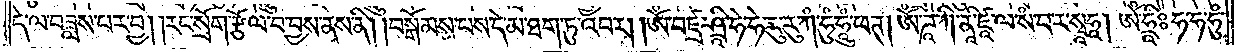དེ་ལ་བཟླས་པར་བྱ། །རང་སྲོག་རྩོལ་བ་བྱས་ནས་ནི། །བསྒོམས་པས་དེ་མ་ཐག་ཏུ་འབར། །ཨོཾ་བཛྲ་ཤྲཱི་ཧེ་ཧེ་རུ་རུ་ཀཾ་ཧཱུཾ་ཧཱུཾ་ཕཊ། ཨོཾ་ཊཱ་ཀི་ནཱ་ཛཱི་ལ་སཾ་བ་ར་སྭཱཧཱ། ཨོཾ་ཧྲཱིཿ ཧ་ཧ་ཧུཾ་
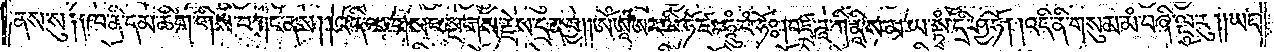ནས་སུ༑ ༑ཁ་ནི་དམ་ཚིག་གིས་བཀང་ནས། །འདི་ལ་གསང་སྔགས་རྗེས་དྲན་བྱ། །ཨོཾ་ཨཱ་ཨ་ར་ལི་ཧོ་ཛཿཧཱུཾ་བཾ་ཧོཿ། བཛྲ་ཌཱ་ཀི་ནཱི་ས་མ་ཡ་སྟྭཾ་དྲི་ཤྱ་ཧོ། །འདི་ནི་གསུམ་མཾ་བཞི་ལྔ་རུ། །ཡང་
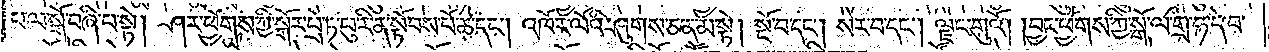པ་ལ་སྒོ་བཞི་པ་སྟེ། ཤར་ཕྱོགས་ཀྱི་སྒོར་པྲེ་ཏ་པུ་རི་ན་སྟོབས་པོ་ཆེ་དང༌། འཁོར་ལོའི་ཤུགས་ཅན་མ་སྟེ། སྔོ་བ་དང༌། སེར་བ་དང༌། ལྗང་གུའོ། །བྱང་ཕྱོགས་ཀྱི་སྒོ་ལ་གྲྀ་ཧ་དེ་བ་
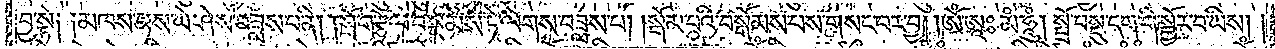བྱ་སྟེ༑ ༑མཁས་པས་ཡེ་ཤེས་བཟླས་བ་ནི། །སྲོག་རྩོལ་བསྔམས་ཏེ་ལེགས་བཟླས་པ། །སྒོམ་པའི་བསྒོམས་པས་གསང་བར་བྱ། །ཨོཾ་ཨཱཿམཾ་ཧཱུཾ། སྤྲོ་བསྡུ་དག་གི་སྦྱོར་བ་ཡིས། །
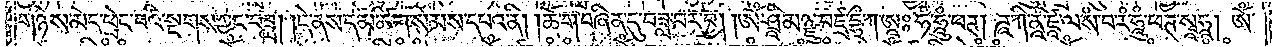གཉིས་མེད་ཕྲེང་པའི་སྔགས་ཀྱང་བཟླ། །དེ་ནས་དམ་ཚིག་སེམས་དཔའ་ནི། ཆོ་ག་བཞིན་དུ་བཟླ་བར་བྱ། །ཨོཾ་ཤྲཱི་མཉྫུ་བཛྲ་དྷྲྀ་ཀ་ཨཱཿཧཾ་ཧཱུཾ་ཕཊ། ཌཱ་ཀི་ནཱི་ཛཱ་ལ་སཾ་བ་རམ་ཧཱུཾ་ཕཌ་སྭཱཧཱ། ཨོཾ་
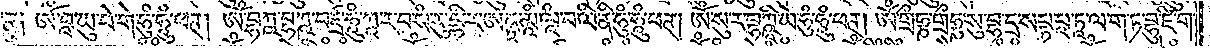ཕཊ༑ ཨོཾ་བཱ་ཡུ་བེ་གེ་ཧུཾ་ཧཱུཾ་ཕཊ། ཨོཾ་བྷཀྵ་བྷཀྵ་བཛྲ་ཧཱུཾ་ཀཱ་ར་བ་སཾ་རུ་དྷི་ར་ཨནྟྲ་མཱཾ་ལཱཾ་བ་ལི་ནི་ཧུཾ་ཧཱུཾ་ཕཊ། ཨོཾ་སུ་ར་བྷཀྵཱི་ཡེ་ཧུཾ་ཧཱུཾ་ཕཊ། ཨོཾ་གྲྀཧྞ་གྲྀཧྞ་སུ་བྷ་དྲ་སཔྟ་པཱ་ཏཱ་ལ་ག་ཏ་བྷུ་ཛི་ག་
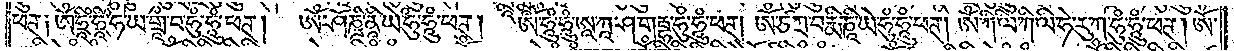ཕཊ༑ ཨོཾ་ཧྲཱིཾ་ཧྲཱིཾ་ཧ་ཡ་གྲཱྀ་བ་ཧུཾ་ཧཱུཾ་ཕཊ། ཨོཾ་ཤོཎྜི་ནཱི་ཡེ་ཧུཾ་ཧཱུཾ་ཕཊ། ཨོཾ་ཧུཾ་ཧཱུཾ་ཨཱ་ཀཱ་ཤ་གརྦྷ་ཧུཾ་ཧཱུཾ་ཕཊ། ཨོཾ་ཙ་ཀྲ་པ་རྨི་ཎཱི་ཡེ་ཧུཾ་ཧཱུཾ་ཕཊ། ཨོཾ་ཀི་ལི་ཀི་ལི་ཧེ་རུ་ཀ་ཧུཾ་ཧཱུཾ་ཕཊ། ཨོཾ་
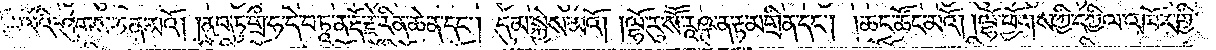འཁོར་ལོའི་ཤུགས་ཅན་མའོ། །ནུབ་ཏུ་གྲྀ་ཧ་དེ་བ་ཏཱ་ན་རྡོ་རྗེ་རིན་ཆེན་དང༌། དུམ་སྐྱེས་མའོ། །ལྷོ་རུ་སཽ་རཱཥྚ་ན་རྟ་མགྲིན་དང༌། །ཆང་ཚོང་མའོ། །ལྷོ་ཕྱོགས་ཀྱི་དཀྱིལ་འཁོར་གྱི་
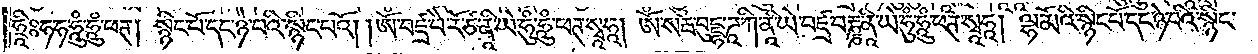ཧྲཱིཿ ཧ་ཧ་ཧཱུཾ་ཧཱུཾ་ཕཊ། སྙིང་པོ་དང་ཉེ་བའི་སྙིང་པའོ། །ཨོཾ་བཛྲ་བཻ་རོ་ཙ་ནཱི་ཡེ་ཧུཾ་ཧཱུཾ་ཕཊ་སྭཱཧཱ། ཨོཾ་སརྦ་བུདྡྷ་ཌཱ་ཀི་ནཱི་ཡེ་བཛྲ་བརྞ་ནཱི་ཡེ་ཧུཾ་ཧཱུཾ་ཕཊ་སྭཱཧཱ། ལྷ་མོའི་སྙིང་པོ་དང་ཉེ་བའི་སྙིང་
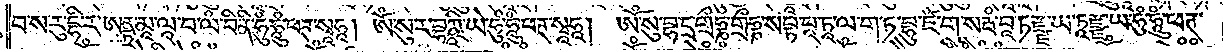བ་ས་རུ་དྷི་ར་ཨནྟ་མཱ་ལཱ་བ་ལཾ་པི་ནི་ཧུཾ་ཧཱུཾ་ཕཊ་སྭཱཧཱ། ཨོཾ་སུ་ར་བྷཀྵཱི་ཡེ་ཧུཾ་ཧཱུཾ་ཕཊ་སྭཱཧཱ། ཨོཾ་སུ་བྷ་དྲ་གྲྀཧྞ་གྲྀཧྞ་སཔྟ་པཱ་ཏཱ་ལ་ག་ཏ་བྷུ་ཛཾ་ག་སརྦཾ་བཱ་ཏརྫྫ་ཡ་ཏཱརྫྫ་ཡ་ཧུཾ་ཧཱུཾ་ཕཊ་
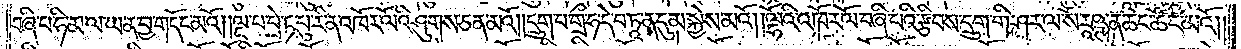བཞི་པ་ཧི་མ་ལ་ཡན་བྱ་གདོང་མའོ། །ལྔ་པ་པྲེ་ཏ་པུ་རིན་འཁོར་ལོའི་ཤུགས་ཅན་མའོ། །དྲུག་པ་གྲྀ་ཧ་དེ་བ་ཏཱ་ན་དུ་མ་སྐྱེས་མའོ། །ལྷོའི་འཁོར་ལོ་བཞི་པའི་རྩིབས་དྲུག་གི་ཤར་ལ་སཻ་རཱཥྚ་ན་ཆང་ཚང་མའོ། །
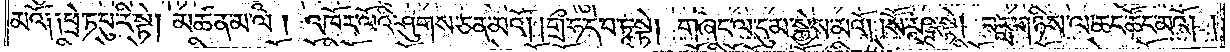མའོ༑ ༑ཕྲེ་ཏ་པུ་རི་སྟེ། མཚན་མ་ལ། འཁོར་ལོའི་ཤུགས་ཅན་མའོ། །གྲྀ་ཧད་བ་ཏཱ་སྟེ། གཞང་ལ་དུ་མ་སྐྱེས་མའོ། །སཽ་རཱཥྚ་སྟེ། བརླ་གཉིས་ལ་ཆང་ཚོང་མའོ། །
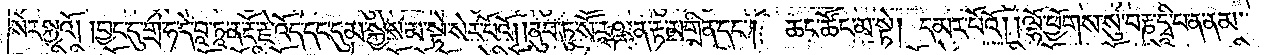སེར་སྐྱའོ། །བྱང་དུ་གྲྀ་ཧ་དེ་བཱ་ཏཱ་ན་རྡོ་རྗེ་འོད་དང་དུ་མ་སྐྱེས་མ་སྟེ་སེར་པོའོ། །ནུབ་ཏུ་སཽ་རཱཥྜ་ན་རྟ་མགྲིན་དང༌། ཆང་ཚོང་མ་སྟེ། དམར་པོའོ། །ལྷོ་ཕྱོགས་སུ་བརྞ་དྭི་པ་ན་ནམ་
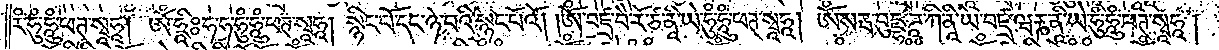རཾ་ཧུཾ་ཧཱུཾ་ཕཊ་སྭཱཧཱ། ཨོཾ་ཧྲཱིཿ ཧ་ཧ་ཧུཾ་ཧཱུཾ་ཕཊ་སྭཱཧཱ། སྙིང་པོ་དང་ཉེ་བའི་སྙིང་པོའོ། །ཨོཾ་བཛྲ་བཻ་རོ་ཙ་ནཱི་ཡེ་ཧུཾ་ཧཱུཾ་ཕཊ་སྭཱཧཱ། ཨོཾ་སརྦ་བུདྡྷ་ཌཱ་ཀི་ནཱི་ཡེ་བཛྲ་ཝརྞ་ནཱི་ཡེ་ཧུཾ་ཧཱུཾ་ཕཊ་སྭཱཧཱ།
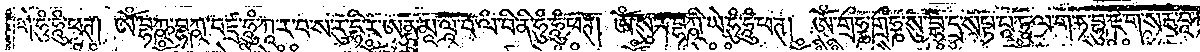གེ་ཧུཾ་ཧཱུཾ་ཕཊ། ཨོཾ་བྷཀྵ་བྷཀྵ་བཛྲ་ཧཱུཾ་ཀཱ་ར་བ་ས་རུ་དྷི་ར་ཨནྟྲ་མཱ་ལཱ་བ་ལཾ་བི་ནི་ཧུཾ་ཧཱུཾ་ཕཊ། ཨོཾ་སུ་ར་བྷཀྵི་ཡེ་ཧུཾ་ཧཱུཾ་ཕཊ། ཨོཾ་གྲྀཧྞ་གྲྀཧྞ་སུ་བྷ་དྲ་ས་པ་པཱ་ཏཱ་ལ་ག་ཏ་བྷུ་ཛཾ་ག་སརྦ་བཱ་ཏ་རྫྫ་ཡ་
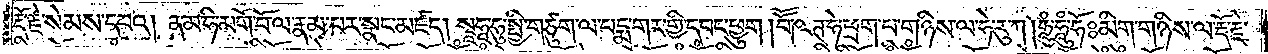རྡོ་རྗེ་སེམས་དཔའ། ན་མ་ཧི་མགོ་བོ་ལ་རྣམ་པར་སྣང་མཛད། སྭཱཧཱ་ཧུ་སྤྱི་གཙུག་ལ་པདྨ་གར་གྱི་དབང་ཕྱུག །བཽ་ཥཊ་ཧེ་ཕྲག་པ་གཉིས་ལ་ཧེ་རུ་ཀ །ཧཱུཾ་ཧཱུཾ་ཧོཿ མིག་གཉིས་ལ་རྡོ་རྗེ་
